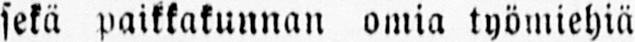sekä paikkakunnan omia työmiehiä
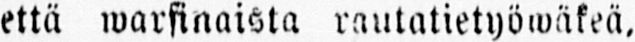että warsinaista rautatietyöwäkeä,
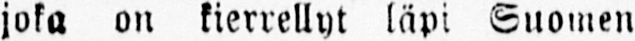joka on kierrellyt läpi Suomen
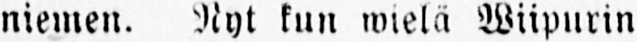niemen. Nyt kun wielä Wiipurin
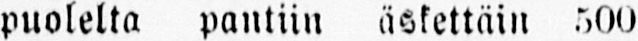puolelta pantiin äskettäin 500
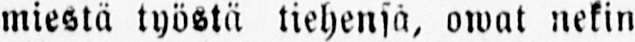miestä työstä tiehensä, owat nekin
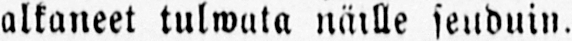alkaneet tulwata näille seuduin.
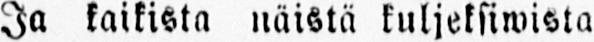Ja kaikista näistä kuljeksiwista
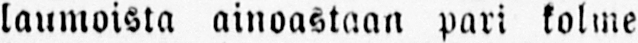laumoista ainoastaan pari kolme
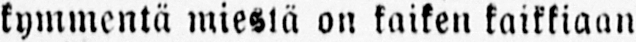kymmentä miestä on kaiken kaikkiaan
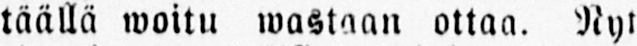täällä woitu wastaan ottaa. Nyt
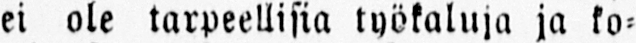ei ole tarpeellisia työkaluja ja ko-
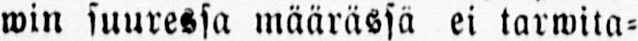win suuressa määrässä ei tarwita-
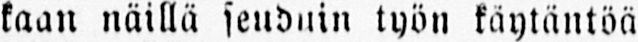kaan näillä seuduin työn käytäntöä
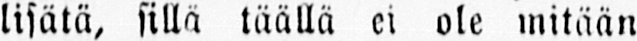lisätä, sillä täällä ei ole mitään
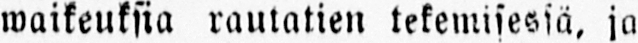waikeuksia rautatien tekemisestä, ja
